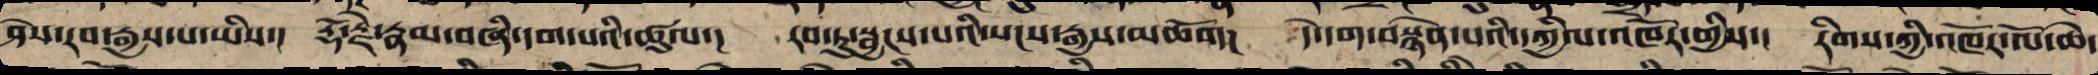ཤེས་རབ་རྒྱས་པ་ཡིས་། རྡོ་རྗེ་རྣམ་བཞི་དག་པའི་ཚུལ་། རབ་ཏུ་སྦྱངས་པའི་སངས་རྒྱས་མཆོག། དེ་དག་བསྙེན་པའི་དཀྱིལ་འཁོར་གྱིས་། རིགས་ཀྱི་འཁོར་ལོ་ཆེ་
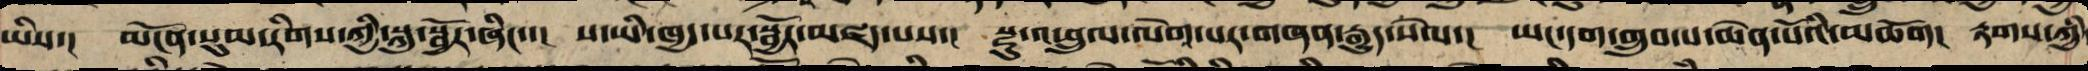ཡིས་། མངོན་སུམ་རིགས་ཀྱི་སྐུ་སྦྱོར་ཞིང་་། ས་ཡི་ཁྱད་པར་སྦྱོར་མཛད་པས་། སྫུ་འཕྲུལ་ལེགས་པར་གཞན་རྒྱུད་སེལ་། ཡང་དག་གྲུབ་པ་ཆེན་པོའི་མཆོག། རྟགས་ཀྱི་
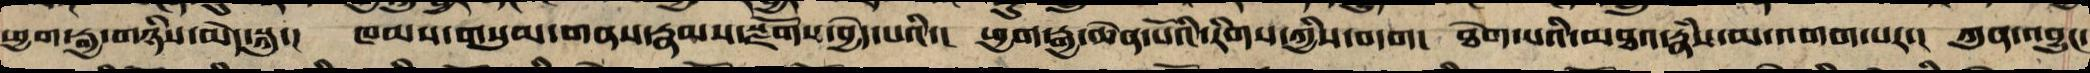ཕྱག་རྒྱ་གཉིས་མེད་སྐུ་། ཁམས་གསུམ་གནས་རྣམས་སྫོགས་བྱེད་པའི་། ཕྱག་རྒྱ་ཆེན་པོའི་རིགས་ཀྱི་བདག། ཐེག་པའི་མཐའ་རྣཾས་མ་འགགས་པར་། ཀུན་འབྱུང་
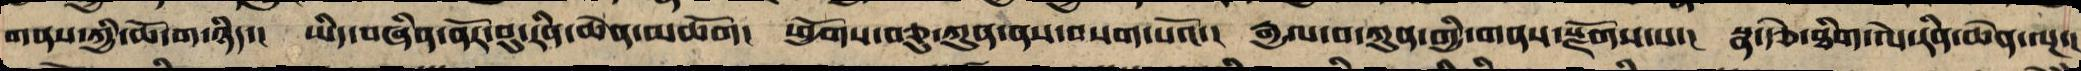གནས་ཀྱི་ཆོ་ག་ཉིད་། ཡིད་བཞིན་ནོར་བུ་རིན་ཆེན་མཆོག། ཕྱོགས་བཅུ་ཀུན་ནས་བསག་པའོ་། རྒྱལ་བ་ཀུན་གྱི་གནས་སྫོགས་པ་། སྣ་རྩེ་ཐིག་ལེ་རིན་ཆེན་ལྔ་།
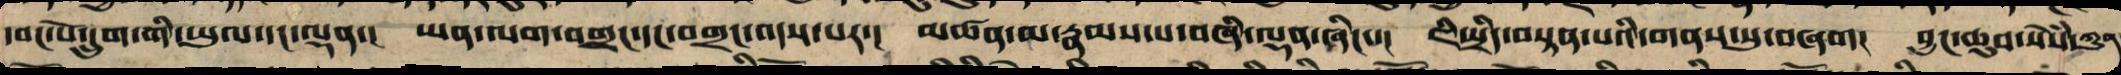དབང་པོ་དྲུག་གི་ཡུལ་དང་ལྡན་། ཡན་ལག་བགྲང་དང་བགྲང་འདས་པར་། མཚན་མ་རྣམས་པ་བཞི་ལྡན་ཞིང་་། ཇི་སྲིད་བསྟན་པའི་གནས་སུ་བཞག། བྱང་ཆུབ་སེཾས་ཀུན
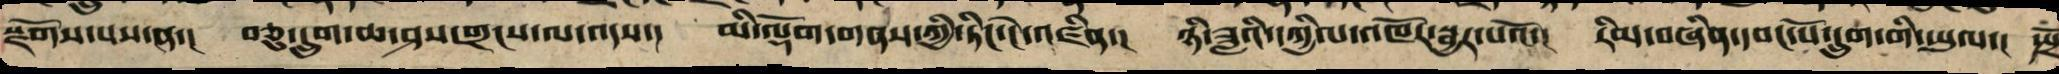སྫོགས་པས་ན་། བཅུ་དྲུག་ཆ་ཤས་གྲངས་ལས་འདས་། མི་ལྡོག་གནས་ཀྱི་ཏིང་ངེ་འཛིན་། ཉི་ཟླའི་དཀྱིལ་འཁོར་སྦྱར་བའོ་། རིམ་བཞིན་དབང་པོ་དྲུག་གི་ཡུལ་། སྤྲོ
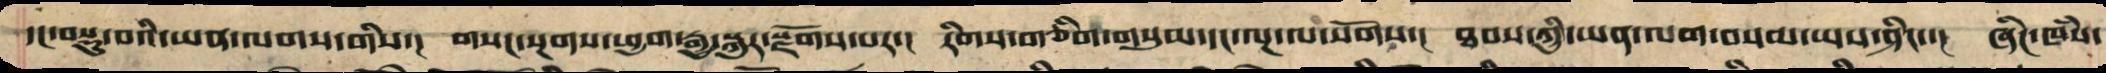དང་བསྡུ་བའི་ཡན་ལག་གིས་། གསང་སྔགས་ཕྱག་རྒྱ་སྐུར་སྫོགས་པར་། རིགས་གཅིག་གསུམ་དང་ལྔ་ལ་སོགས་། ཐབས་ཀྱི་ཡན་ལག་བསམ་ཡས་ཤིང་་། ཞིང་ཁཾས་
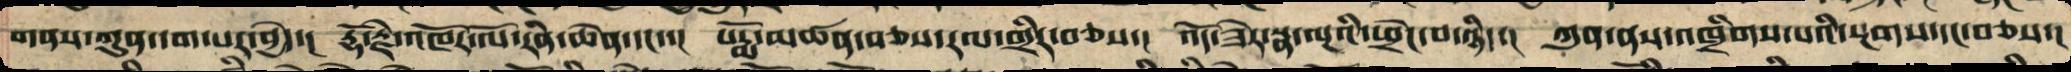གནས་ཀུན་དག་པར་བྱེད་། རྡོ་རྗེ་འཁོར་ལོ་རིན་ཆེན་དང་་། པདྨོ་མཚན་བཅས་རལ་གྲིར་བཅས་། འོད་ཟེར་སྣ་ལྔའི་ཕྲེང་བ་ཉིད། ཀུན་ནས་འཁྲིགས་པའི་སྔགས་དང་བཅས་།
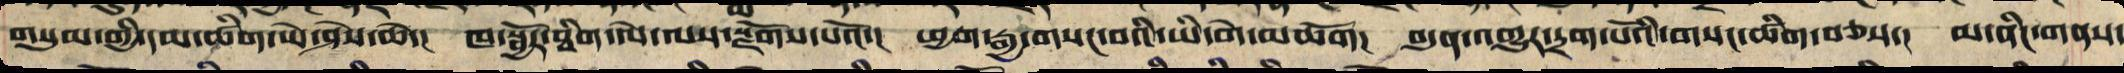གསུམ་གྱི་དམ་ཚིག་ཡེ་ཤེས་ཆེ་། ཁ་སྦྱོར་ཐིག་ལེ་ལས་སྫོགས་པའོ་། ཕྱག་རྒྱ་གསང་བའི་ཡི་གེ་མཆོག། བདུན་འགྱུར་དྲག་པོའི་གསང་ཚིག་བཅས་། མ་ནིང་གནས་
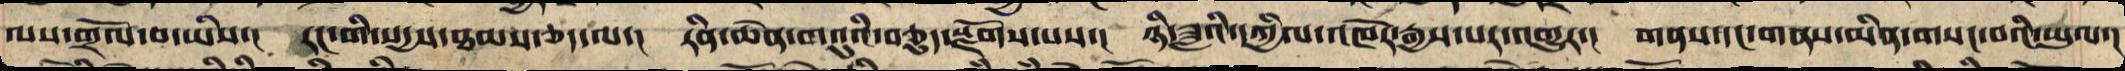ལས་གྲོལ་བ་ཡིས་། རང་གི་སདྱས་ཐམས་ཅད་ལ་། རིན་ཆེན་གའུའི་བཅུད་སྫོགས་པས་། ཉི་ཟླའི་དཀྱིལ་འཁོར་རྒྱས་པར་འགྱུར་། གནས་དང་གནས་མིན་གསང་བའི་ཡུལ་།
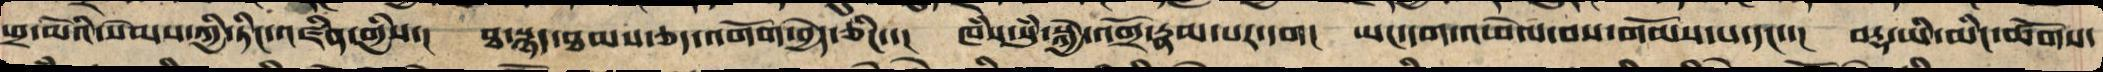ཕྲ་མོའི་སེམས་ཀྱི་ཏིང་འཛིན་གྱིས་། ཐ་སྙད་ཐམས་ཅད་འགོག་བྱེད་ཅིང་་། ཁཾས་གསུཾ་སྐྱེ་འགྲོ་རྣམ་པར་དག། ཡང་དག་འཕེལ་བས་གོམས་པ་དང་་། བརྡ་ཡི་མིང་ཚོགས་
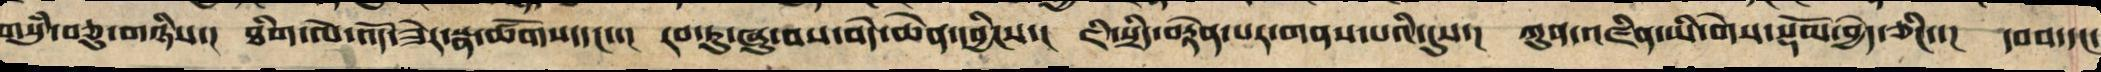སུཾ་བཅུ་གཉིས་། ཐིག་ལེ་འོད་ཟེར་སྣ་ཚོགས་དང་་། རབ་ཏུ་ཞུ་བས་བདེ་ཆེན་དབྱིངས་། ཇི་སྲིད་བརྟེན་པར་གནས་པའི་དུས་། ཀུན་འཛིན་ཡི་གེས་སྡོམ་བྱེད་ཅིང་་། དབབ་དང་
